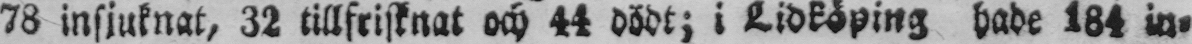jan 78 insjuknat, 32 tillfrisknat och 44 dödt; i Lidköping hade 184 in-
